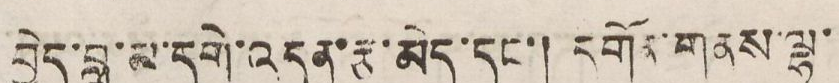བྱེད་བླ་མ་དགེ་འདུན་རྩ་མེད་དང་། དགོན་གནས་ལྷ་
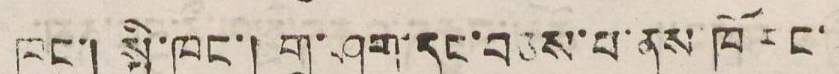ཁང་། སྤྱི་ཁང་། གྲ་ཤག་དང་བཅས་པ་ནས་ཁོ རང་
